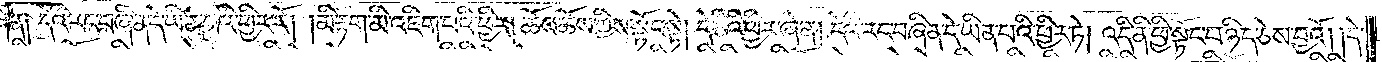ཞེ་ན། དེའི་རང་བཞིན་དེ་ཡིན་པའི་ཕྱིར་རོ། །མི་རྟག་མི་འཇིག་པའི་ཕྱིར། ཆོས་ཆོས་ཀྱིས་སྟོང་སྟེ། དེ་ཅིའི་ཕྱིར་ཞེ་ན། དེའི་རང་བཞིན་དེ་ཡིན་པའི་ཕྱིར་ཏེ། །འདི་ནི་ཕྱི་སྟོང་པ་ཉིད་ཅེས་བྱའོ། །དེ་
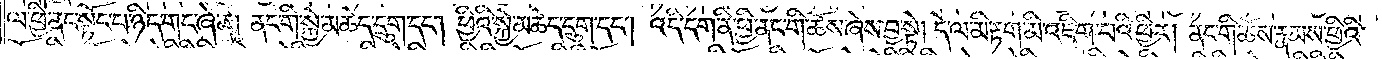ལ་ཕྱི་ནང་སྟོང་པ་ཉིད་གང་ཞེ་ན། ནང་གི་སྐྱེ་མཆེད་དྲུག་དང༌། ཕྱིའི་སྐྱེ་མཆེད་དྲུག་དང༌། འདི་དག་ནི་ཕྱི་ནང་གི་ཆོས་ཞེས་བྱ་སྟེ། དེ་ལ་མི་རྟག་མི་འཇིག་པའི་ཕྱིར། ནང་གི་ཆོས་རྣམས་ཕྱིའི་
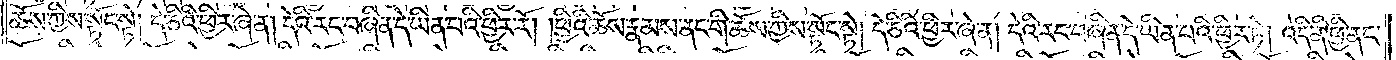ཆོས་ཀྱིས་སྟོང་སྟེ། དེ་ཅིའི་ཕྱིར་ཞེ་ན། དེའི་རང་བཞིན་དེ་ཡིན་པའི་ཕྱིར་རོ། །ཕྱིའི་ཆོས་རྣམས་ནང་གི་ཆོས་ཀྱིས་སྟོང་སྟེ། དེ་ཅིའི་ཕྱིར་ཞེ་ན། དེའི་རང་བཞིན་དེ་ཡིན་པའི་ཕྱིར་ཏེ། འདི་ནི་ཕྱི་ནང་
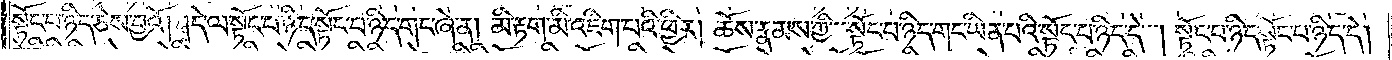སྟོང་པ་ཉིད་ཅེས་བྱའོ། །དེ་ལ་སྟོང་པ་ཉིད་སྟོང་པ་ཉིད་གང་ཞེ་ན། མི་རྟག་མི་འཇིག་པའི་ཕྱིར། ཆོས་རྣམས་ཀྱིས་སྟོང་པ་ཉིད་གང་ཡིན་པའི་སྟོང་པ་ཉིད་དེས། སྟོང་པ་ཉིད་སྟོང་པ་ཉིད་དེ།
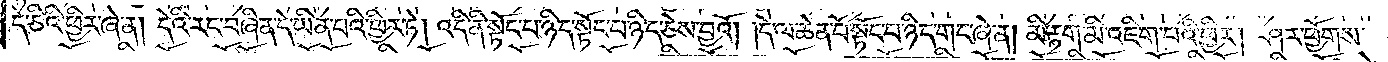དེ་ཅིའི་ཕྱིར་ཞེ་ན། དེའི་རང་བཞིན་དེ་ཡིན་པའི་ཕྱིར་ཏེ། འདི་ནི་སྟོང་པ་ཉིད་སྟོང་པ་ཉིད་ཅེས་བྱའོ། །དེ་ལ་ཆེན་པོ་སྟོང་པ་ཉིད་གང་ཞེ་ན། མི་རྟག་མི་འཇིག་པའི་ཕྱིར། ཤར་ཕྱོགས་
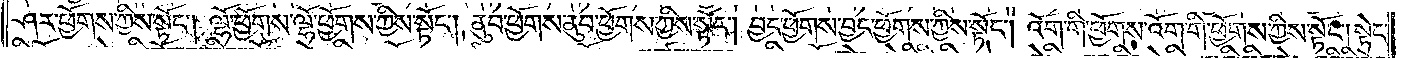ཤར་ཕྱོགས་ཀྱིས་སྟོང༌། ལྷོ་ཕྱོགས་ལྷོ་ཕྱོགས་ཀྱིས་སྟོང༌། ནུབ་ཕྱོགས་ནུབ་ཕྱོགས་ཀྱིས་སྟོང༌། བྱང་ཕྱོགས་བྱང་ཕྱོགས་ཀྱིས་སྟོང༌། འོག་གི་ཕྱོགས་འོག་གི་ཕྱོགས་ཀྱིས་སྟོང༌། སྟེང་
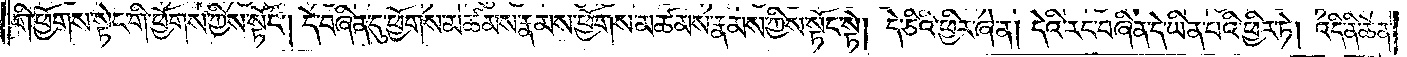གི་ཕྱོགས་སྟེང་གི་ཕྱོགས་ཀྱིས་སྟོང༌། དེ་བཞིན་དུ་ཕྱོགས་མཚམས་རྣམས་ཕྱོགས་མཚམས་རྣམས་ཀྱིས་སྟོང་སྟེ། དེ་ཅིའི་ཕྱིར་ཞེ་ན། དེའི་རང་བཞིན་དེ་ཡིན་པའི་ཕྱིར་ཏེ། འདི་ནི་ཆེན་
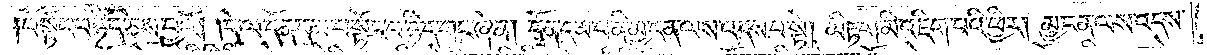པོ་སྟོང་པ་ཉིད་ཅེས་བྱའོ། །དེ་ལ་དོན་དམ་པ་སྟོང་པ་ཉིད་གང་ཞེ་ན། དོན་དམ་པ་ནི་མྱ་ངན་ལས་འདས་པ་སྟེ། མི་རྟག་མི་འཇིག་པའི་ཕྱིར། མྱ་ངན་ལས་འདས་
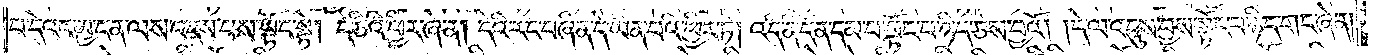པ་དེའང་མྱ་ངན་ལས་འདས་པས་སྟོང་སྟེ། དེ་ཅིའི་ཕྱིར་ཞེ་ན། དེའི་རང་བཞིན་དེ་ཡིན་པའི་ཕྱིར་ཏེ། འདི་ནི་དོན་དམ་པ་སྟོང་པ་ཉིད་ཅེས་བྱའོ། །དེ་ལ་འདུས་བྱས་སྟོང་པ་ཉིད་གང་ཞེ་ན།
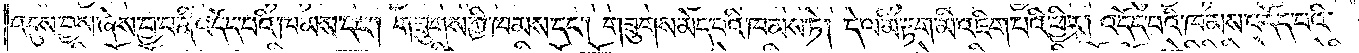འདུས་བྱས་ཞེས་བྱ་བ་ནི་འདོད་པའི་ཁམས་དང༌། གཟུགས་ཀྱི་ཁམས་དང༌། གཟུགས་མེད་པའི་ཁམས་ཏེ། དེ་ལ་མི་རྟག་མི་འཇིག་པའི་ཕྱིར། འདོད་པའི་ཁམས་འདོད་པའི་
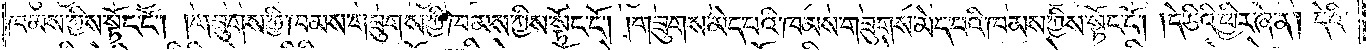ཁམས་ཀྱིས་སྟོང་ངོ༌། །གཟུགས་ཀྱི་ཁམས་གཟུགས་ཀྱི་ཁམས་ཀྱིས་སྟོང་ངོ༌། གཟུགས་མེད་པའི་ཁམས་གཟུགས་མེད་པའི་ཁམས་ཀྱིས་སྟོང་ངོ༌། །དེ་ཅིའི་ཕྱིར་ཞེ་ན། དེའི་
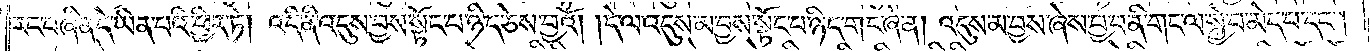རང་བཞིན་དེ་ཡིན་པའི་ཕྱིར་ཏེ། འདི་ནི་འདུས་བྱས་སྟོང་པ་ཉིད་ཅེས་བྱའོ། །དེ་ལ་འདུས་མ་བྱས་སྟོང་པ་ཉིད་གང་ཞེ་ན། འདུས་མ་བྱས་ཞེས་བྱ་བ་ནི་གང་ལ་སྐྱེ་བ་མེད་པ་དང༌།
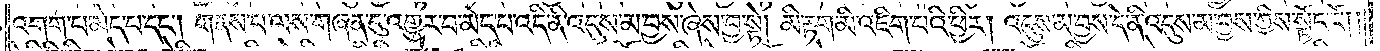འགག་པ་མེད་པ་དང༌། གནས་པ་ལས་གཞན་དུ་འགྱུར་བ་མེད་པ་འདི་ནི་འདུས་མ་བྱས་ཞེས་བྱ་སྟེ། མི་རྟག་མི་འཇིག་པའི་ཕྱིར། འདུས་མ་བྱས་དེ་ནི་འདུས་མ་བྱས་ཀྱིས་སྟོང་ངོ༌། །
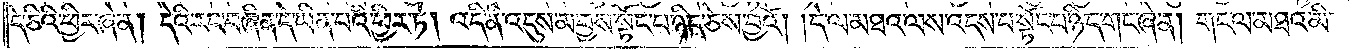དེ་ཅིའི་ཕྱིར་ཞེ་ན། དེའི་རང་བཞིན་དེ་ཡིན་པའི་ཕྱིར་ཏེ། འདི་ནི་འདུས་མ་བྱས་སྟོང་པ་ཉིད་ཅེས་བྱའོ། །དེ་ལ་མཐའ་ལས་འདས་པ་སྟོང་པ་ཉིད་གང་ཞེ་ན། གང་ལ་མཐའ་མི་
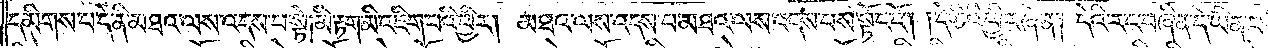དམིགས་པ་དེ་ནི་མཐའ་ལས་འདས་པ་སྟེ། མི་རྟག་མི་འཇིག་པའི་ཕྱིར། མཐའ་ལས་འདས་པ་མཐའ་ལས་འདས་པས་སྟོང་ངོ༌། །དེ་ཅིའི་ཕྱིར་ཞེ་ན། དེའི་རང་བཞིན་དེ་ཡིན་པ
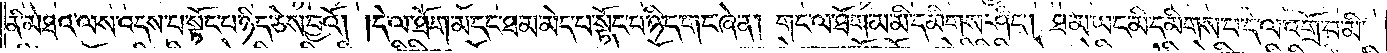ནི་མཐའ་ལས་འདས་པ་སྟོང་པ་ཉིད་ཅེས་བྱའོ། །དེ་ལ་ཐོག་མ་དང་ཐ་མ་མེད་པ་སྟོང་པ་ཉིད་གང་ཞེ་ན། གང་ལ་ཐོག་མ་མི་དམིགས་ཤིང༌། ཐ་མ་ཡང་མི་དམིགས་པ་དེ་ལ་འགྲོ་བ་མི་
